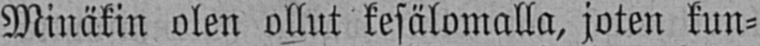Minäkin olen ollut kesälomalla, joten kun-
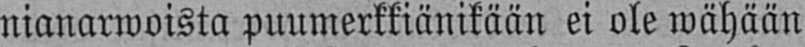nianarwoista puumerkkiänikään ei ole wähään
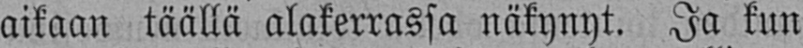aikaan täällä alakerrassa näkynyt. Ja kun
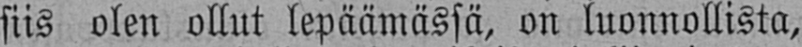siis olen ollut lepäämässä, on luonnollista,
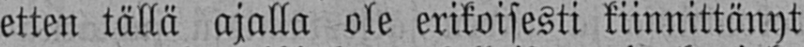etten tällä ajalla ole erikoisesti kiinnittänyt
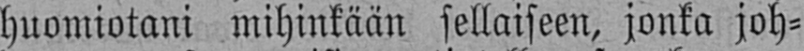huomiotani mihinkään sellaiseen, jonka joh-
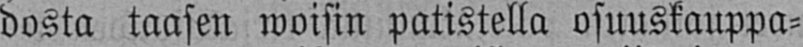dosta taasen woisin patistella osuuskauppa-
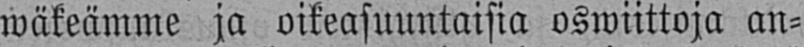wäkeämme ja oikeasuuntaisia oswiittoja an-
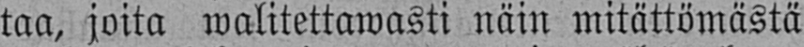taa, joita walitettawasti näin mitättömästä
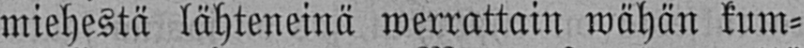miehestä lähteneinä werrattain wähän kum-
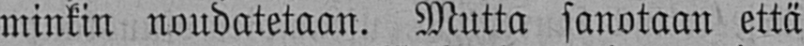minkin noudatetaan. Mutta sanotaan että
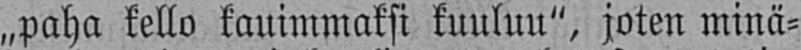„paha kello kauimmaksi kuulun", joten minä-
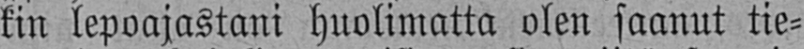kin lepoajastani huolimatta olen saanut tie-
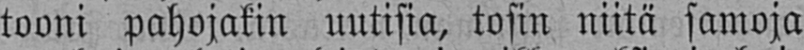tooni pahojakin uutisia, tosin niitä samoja
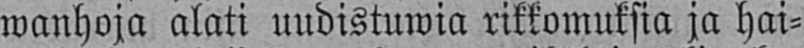wanhoja alati uudistuwia rikkomuksia ja hai-
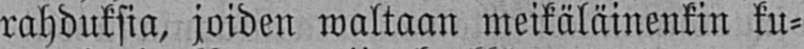rahduksia, joiden waltaan meikäläinenkin ku-
